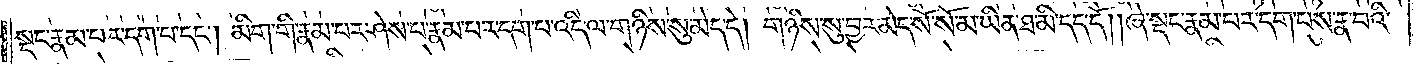སྡང་རྣམ་པར་དག་པ་དང༌། མིག་གི་རྣམ་པར་ཤེས་པ་རྣམ་པར་དག་པ་འདི་ལ་གཉིས་སུ་མེད་དེ། གཉིས་སུ་བྱར་མེད་སོ་སོ་མ་ཡིན་ཐ་མི་དད་དོ། །ཞེ་སྡང་རྣམ་པར་དག་པས་རྣ་བའི་
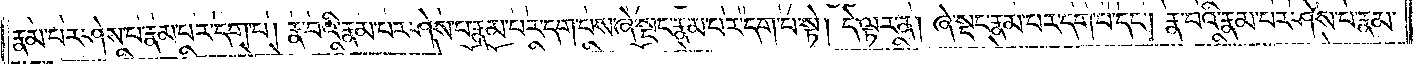རྣམ་པར་ཤེས་པ་རྣམ་པར་དག་པ། རྣ་བའི་རྣམ་པར་ཤེས་པ་རྣམ་པར་དག་པས་ཞེ་སྡང་རྣམ་པར་དག་པ་སྟེ། དེ་ལྟར་ན། ཞེ་སྡང་རྣམ་པར་དག་པ་དང༌། རྣ་བའི་རྣམ་པར་ཤེས་པ་རྣམ་
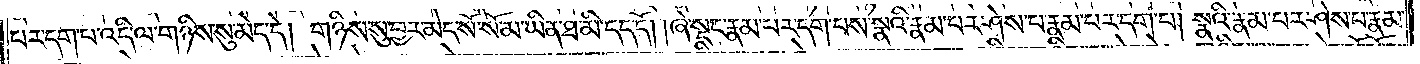པར་དག་པ་འདི་ལ་གཉིས་སུ་མེད་དེ། གཉིས་སུ་བྱར་མེད་སོ་སོ་མ་ཡིན་ཐ་མི་དད་དོ། །ཞེ་སྡང་རྣམ་པར་དག་པས་སྣའི་རྣམ་པར་ཤེས་པ་རྣམ་པར་དག་པ། སྣའི་རྣམ་པར་ཤེས་པ་རྣམ་
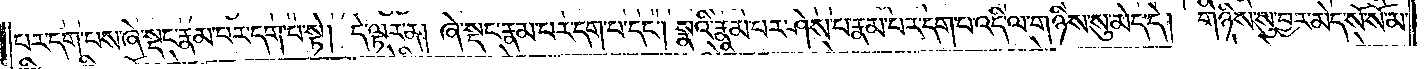པར་དག་པས་ཞེ་སྡང་རྣམ་པར་དག་པ་སྟེ། དེ་ལྟར་ན། ཞེ་སྡང་རྣམ་པར་དག་པ་དང༌། སྣའི་རྣམ་པར་ཤེས་པ་རྣམ་པར་དག་པ་འདི་ལ་གཉིས་སུ་མེད་དེ། གཉིས་སུ་བྱར་མེད་སོ་སོ་མ་
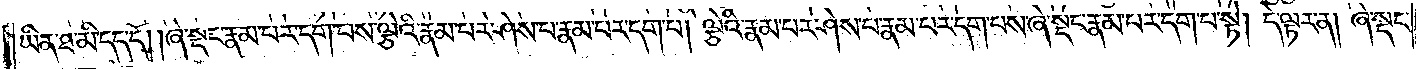ཡིན་ཐ་མི་དད་དོ། །ཞེ་སྡང་རྣམ་པར་དག་པས་ལྕེའི་རྣམ་པར་ཤེས་པ་རྣམ་པར་དག་པ། ལྕེའི་རྣམ་པར་ཤེས་པ་རྣམ་པར་དག་པས་ཞེ་སྡང་རྣམ་པར་དག་པ་སྟེ། དེ་ལྟར་ན། ཞེ་སྡང་
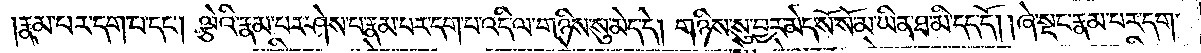རྣམ་པར་དག་པ་དང༌། ལྕེའི་རྣམ་པར་ཤེས་པ་རྣམ་པར་དག་པ་འདི་ལ་གཉིས་སུ་མེད་དེ། གཉིས་སུ་བྱར་མེད་སོ་སོ་མ་ཡིན་ཐ་མི་དད་དོ། །ཞེ་སྡང་རྣམ་པར་དག་
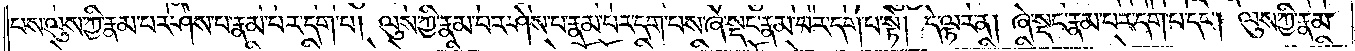པས་ལུས་ཀྱི་རྣམ་པར་ཤེས་པ་རྣམ་པར་དག་པ། ལུས་ཀྱི་རྣམ་པར་ཤེས་པ་རྣམ་པར་དག་པས་ཞེ་སྡང་རྣམ་པར་དག་པ་སྟེ། དེ་ལྟར་ན། ཞེ་སྡང་རྣམ་པར་དག་པ་དང༌། ལུས་ཀྱི་རྣམ་
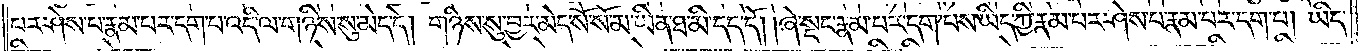པར་ཤེས་པ་རྣམ་པར་དག་པ་འདི་ལ་གཉིས་སུ་མེད་དེ། གཉིས་སུ་བྱར་མེད་སོ་སོ་མ་ཡིན་ཐ་མི་དད་དོ། །ཞེ་སྡང་རྣམ་པར་དག་པས་ཡིད་ཀྱི་རྣམ་པར་ཤེས་པ་རྣམ་པར་དག་པ། ཡིད་
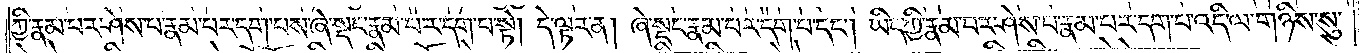ཀྱི་རྣམ་པར་ཤེས་པ་རྣམ་པར་དག་པས་ཞེ་སྡང་རྣམ་པར་དག་པ་སྟེ། དེ་ལྟར་ན། ཞེ་སྡང་རྣམ་པར་དག་པ་དང༌། ཡིད་ཀྱི་རྣམ་པར་ཤེས་པ་རྣམ་པར་དག་པ་འདི་ལ་གཉིས་སུ་
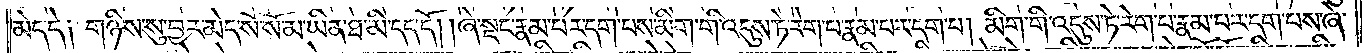མེད་དེ༑ གཉིས་སུ་བྱར་མེད་སོ་སོ་མ་ཡིན་ཐ་མི་དད་དོ། །ཞེ་སྡང་རྣམ་པར་དག་པས་མིག་གི་འདུས་ཏེ་རེག་པ་རྣམ་པར་དག་པ། མིག་གི་འདུས་ཏེ་རེག་པ་རྣམ་པར་དག་པས་ཞེ་
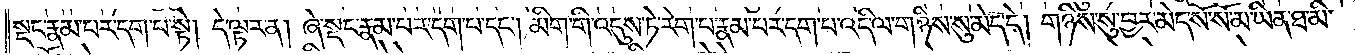སྡང་རྣམ་པར་དག་པ་སྟེ། དེ་ལྟར་ན། ཞེ་སྡང་རྣམ་པར་དག་པ་དང༌། མིག་གི་འདུས་ཏེ་རེག་པ་རྣམ་པར་དག་པ་འདི་ལ་གཉིས་སུ་མེད་དེ། གཉིས་སུ་བྱར་མེད་སོ་སོ་མ་ཡིན་ཐ་མི་
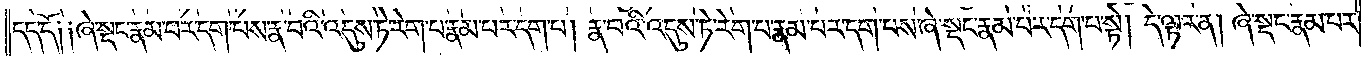དད་དོ༑ ༑ཞེ་སྡང་རྣམ་པར་དག་པས་རྣ་བའི་འདུས་ཏེ་རེག་པ་རྣམ་པར་དག་པ། རྣ་བའི་འདུས་ཏེ་རེག་པ་རྣམ་པར་དག་པས་ཞེ་སྡང་རྣམ་པར་དག་པ་སྟེ། དེ་ལྟར་ན། ཞེ་སྡང་རྣམ་པར་
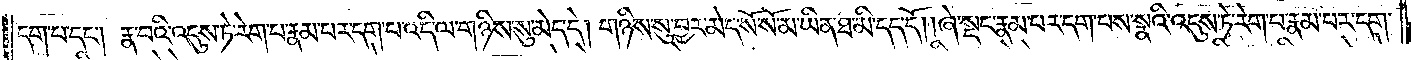དག་པ་དང༌། རྣ་བའི་འདུས་ཏེ་རེག་པ་རྣམ་པར་དག་པ་འདི་ལ་གཉིས་སུ་མེད་དེ། གཉིས་སུ་བྱར་མེད་སོ་སོ་མ་ཡིན་ཐ་མི་དད་དོ། །ཞེ་སྡང་རྣམ་པར་དག་པས་སྣའི་འདུས་ཏེ་རེག་པ་རྣམ་པར་དག་
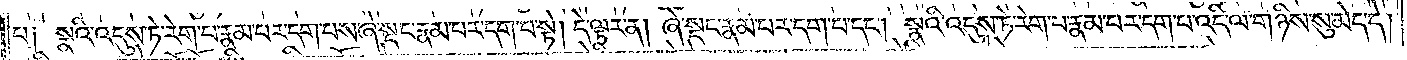པ། སྣའི་འདུས་ཏེ་རེག་པ་རྣམ་པར་དག་པས་ཞེས་སྡང་རྣམ་པར་དག་པ་སྟེ། དེ་ལྟར་ན། ཞེ་སྡང་རྣམ་པར་དག་པ་དང༌། སྣའི་འདུས་ཏེ་རེག་པ་རྣམ་པར་དག་པ་འདི་ལ་གཉིས་སུ་མེད་དེ།
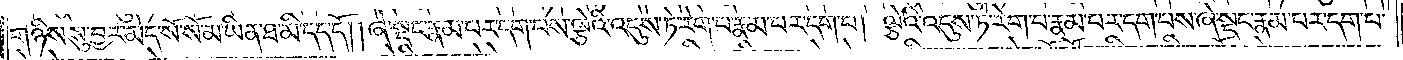གཉིས་སུ་བྱར་མེད་སོ་སོ་མ་ཡིན་ཐ་མི་དད་དོ། །ཞེ་སྡང་རྣམ་པར་དག་པས་ལྕེའི་འདུས་ཏེ་རེག་པ་རྣམ་པར་དག་པ། ལྕེའི་འདུས་ཏེ་རེག་པ་རྣམ་པར་དག་པས་ཞེ་སྡང་རྣམ་པར་དག་པ་
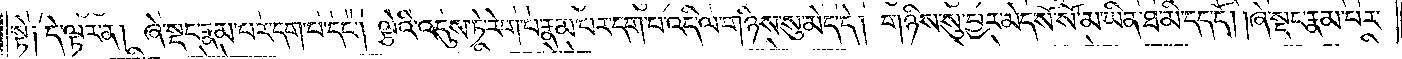སྟེ༑ དེ་ལྟར་ན། ཞེ་སྡང་རྣམ་པར་དག་པ་དང༌། ལྕེའི་འདུས་ཏེ་རེག་པ་རྣམ་པར་དག་པ་འདི་ལ་གཉིས་སུ་མེད་དེ། གཉིས་སུ་བྱར་མེད་སོ་སོ་མ་ཡིན་ཐ་མི་དད་དོ། །ཞེ་སྡང་རྣམ་པར་
